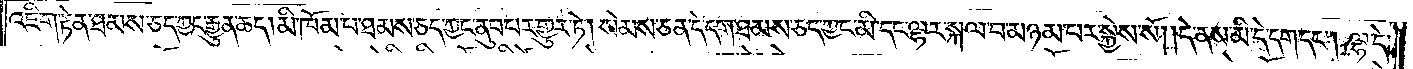འཇིག་རྟེན་ཐམས་ཅད་ཀྱང་རྒྱུན་ཆད། མི་ཁོམ་པ་ཐམས་ཅད་ཀྱང་ནུབ་པར་གྱུར་ཏེ། སེམས་ཅན་དེ་དག་ཐམས་ཅད་ཀྱང་མི་དང་ལྷར་སྐལ་བ་མཉམ་པར་སྐྱེས་སོ། །དེ་ནས་མི་དེ་དག་དང༌། ལྷ་དེ་
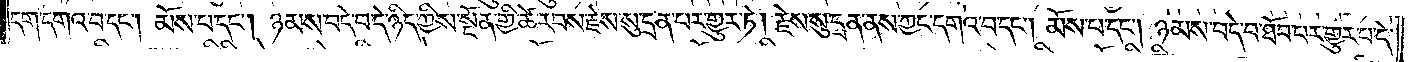དག་དགའ་བ་དང༌། མོས་པ་དང༌། ཉམས་བདེ་བ་དེ་ཉིད་ཀྱིས་སྔོན་གྱི་ཚེ་རབས་རྗེས་སུ་དྲན་པར་གྱུར་ཏེ། རྗེས་སུ་དྲན་ནས་ཀྱང་དགའ་བ་དང༌། མོས་པ་དང༌། ཉམས་བདེ་བ་ཐོབ་པར་གྱུར་པ་དེ་
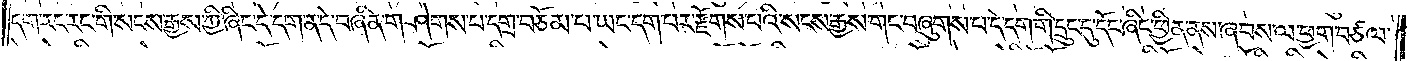དག་རང་རང་གི་སངས་རྒྱས་ཀྱི་ཞིང་དེ་དག་ན་དེ་བཞིན་གཤེགས་པ་དགྲ་བཅོམ་པ་ཡང་དག་པར་རྫོགས་པའི་སངས་རྒྱས་གང་བཞུགས་པ་དེ་དག་གི་དྲུང་དུ་དོང་ཞིང་ཕྱིན་ནས་ཞབས་ལ་ཕྱག་བཙལ་
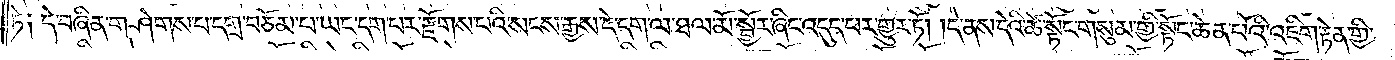ཏེ༑ དེ་བཞིན་གཤེགས་པ་དགྲ་བཅོམ་པ་ཡང་དག་པར་རྫོགས་པའི་སངས་རྒྱས་དེ་དག་ལ་ཐལ་མོ་སྦྱོར་ཞིང་འདུད་པར་གྱུར་ཏོ། །དེ་ནས་དེའི་ཚེ་སྟོང་གསུམ་གྱི་སྟོང་ཆེན་པོའི་འཇིག་རྟེན་གྱི་
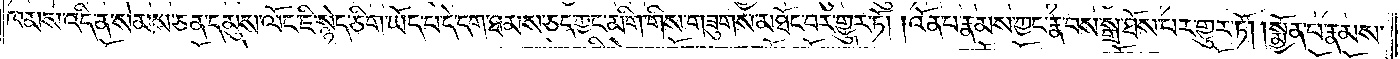ཁམས་འདི་ན་སེམས་ཅན་དམུས་ལོང་ཇི་སྙེད་ཅིག་ཡོད་པ་དེ་དག་ཐམས་ཅད་ཀྱང་མིག་གིས་གཟུགས་མཐོང་བར་གྱུར་ཏོ། །འོན་པ་རྣམས་ཀྱང་རྣ་བས་སྒྲ་ཐོས་པར་གྱུར་ཏོ། །སྨྱོན་པ་རྣམས་
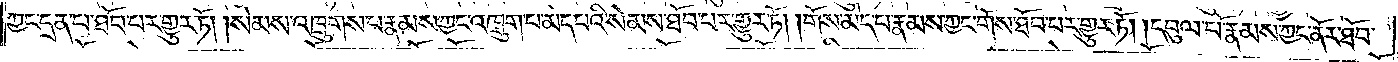ཀྱང་དྲན་པ་ཐོབ་པར་གྱུར་ཏོ། །སེམས་འཁྲུགས་པ་རྣམས་ཀྱང་འཁྲུག་པ་མེད་པའི་སེམས་ཐོབ་པར་གྱུར་ཏོ། །གོས་མེད་པ་རྣམས་ཀྱང་གོས་ཐོབ་པར་གྱུར་ཏོ། །དབུལ་པོ་རྣམས་ཀྱང་ནོར་ཐོབ་
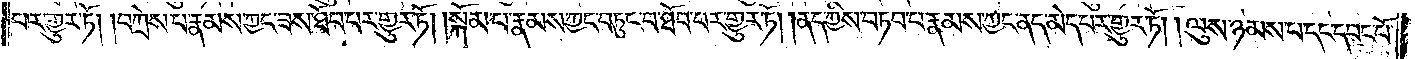པར་གྱུར་ཏོ། །བཀྲེས་པ་རྣམས་ཀྱང་ཟས་ཐོབ་པར་གྱུར་ཏོ། །སྐོམ་པ་རྣམས་ཀྱང་བཏུང་བ་ཐོབ་པར་གྱུར་ཏོ། །ནད་ཀྱིས་བཏབ་པ་རྣམས་ཀྱང་ནད་མེད་པར་གྱུར་ཏོ། །ལུས་ཉམས་པ་དང་དབང་པོ་
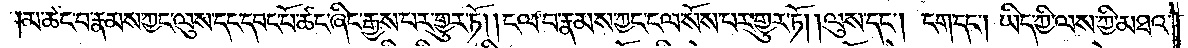མ་ཚང་བ་རྣམས་ཀྱང་ལུས་དང་དབང་པོ་ཚང་ཞིང་རྒྱས་པར་གྱུར་ཏོ། །ངལ་བ་རྣམས་ཀྱང་ངལ་སོས་པར་གྱུར་ཏོ། །ལུས་དང༌། ངག་དང༌། ཡིད་ཀྱི་ལས་ཀྱི་མཐའ་
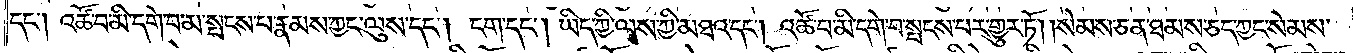དང༌། འཚོ་བ་མི་དགེ་བ་མ་སྤངས་པ་རྣམས་ཀྱང་ལུས་དང༌། ངག་དང༌། ཡིད་ཀྱི་ལས་ཀྱི་མཐའ་དང༌། འཚོ་བ་མི་དགེ་བ་སྤངས་པར་གྱུར་ཏོ། །སེམས་ཅན་ཐམས་ཅད་ཀྱང་སེམས་
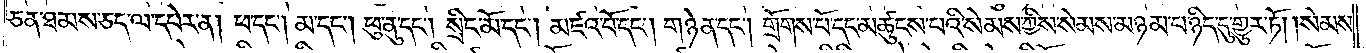ཅན་ཐམས་ཅད་ལ་དཔེར་ན། ཕ་དང༌། མ་དང༌། ཕུ་ནུ་དང༌། སྲིང་མོ་དང༌། མཛའ་བོ་དང༌། གཉེན་དང༌། གྲོགས་པོ་དང་མཚུངས་པའི་སེམས་ཀྱིས་སེམས་མཉམ་པ་ཉིད་དུ་གྱུར་ཏོ། །སེམས་
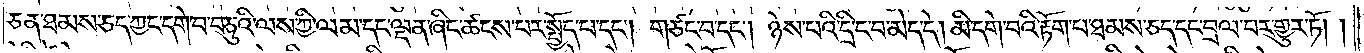ཅན་ཐམས་ཅད་ཀྱང་དགེ་བ་བཅུའི་ལས་ཀྱི་ལམ་དང་ལྡན་ཞིང་ཚངས་པར་སྤྱོད་པ་དང༌། གཙང་བ་དང༌། ཉེས་པའི་དྲི་ང་བ་མེད་དེ། མི་དགེ་བའི་རྟོག་པ་ཐམས་ཅད་དང་བྲལ་བར་གྱུར་ཏོ། །
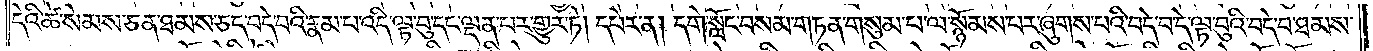དེའི་ཚེ་སེམས་ཅན་ཐམས་ཅད་བདེ་བའི་རྣམ་པ་འདི་ལྟ་བུ་དང་ལྡན་པར་གྱུར་ཏེ། དཔེར་ན། དགེ་སློང་བསམ་གཏན་གསུམ་པ་ལ་སྙོམས་པར་ཞུགས་པའི་བདེ་བ་དེ་ལྟ་བུའི་བདེ་བ་ཐམས་
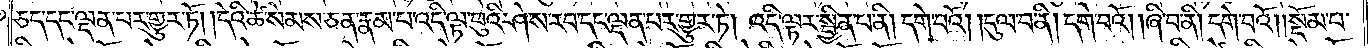ཅད་དང་ལྡན་པར་གྱུར་ཏོ། །དེའི་ཚེ་སེམས་ཅན་རྣམ་པ་འདི་ལྟ་བུའི་ཤེས་རབ་དང་ལྡན་པར་གྱུར་ཏེ། འདི་ལྟར་སྦྱིན་པ་ནི། དགེ་བའོ། །དུལ་བ་ནི། དགེ་བའོ། །ཞི་བ་ནི། དགེ་བའོ། །སྡོམ་པ་
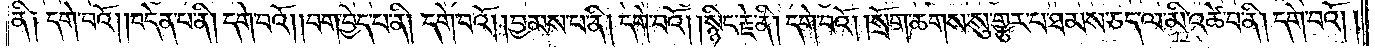ནི༑ དགེ་བའོ། །བདེན་པ་ནི། དགེ་བའོ། །བག་བྱེད་པ་ནི། དགེ་བའོ། །བྱམས་པ་ནི། དགེ་བའོ། །སྙིང་རྗེ་ནི། དགེ་བའོ། །སྲོག་ཆགས་སུ་གྱུར་པ་ཐམས་ཅད་ལ་མི་འཚེ་བ་ནི། དགེ་བའོ། །
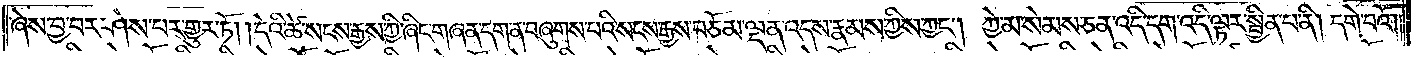ཞེས་བྱ་བར་ཤེས་པར་གྱུར་ཏོ། །དེའི་ཚེ་སངས་རྒྱས་ཀྱི་ཞིང་གཞན་དག་ན་བཞུགས་པའི་སངས་རྒྱས་བཅོམ་ལྡན་འདས་རྣམས་ཀྱིས་ཀྱང༌། ཀྱེ་མ་སེམས་ཅན་འདི་དག་འདི་ལྟར་སྦྱིན་པ་ནི། དགེ་བའོ༎
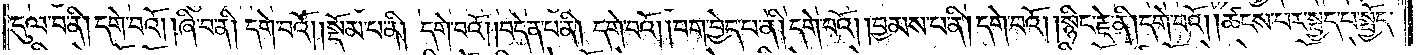དུལ་བ་ནི། དགེ་བའོ། །ཞི་བ་ནི། དགེ་བའོ། །སྡོམ་པ་ནི། དགེ་བའོ། །བདེན་པ་ནི། དགེ་བའོ། །བག་བྱེད་པ་ནི། དགེ་བའོ། །བྱམས་པ་ནི། དགེ་བའོ། །སྙིང་རྗེ་ནི། དགེ་བའོ། །ཚངས་པར་སྤྱད་པ་སྤྱོད་
